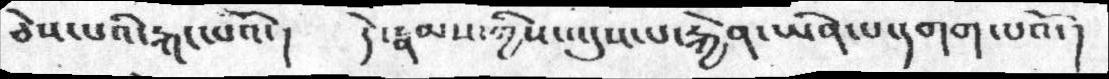ཅེས་པའི་རྐང་པའོ་།  དེ་རྣམས་ཀྱིས་འདུས་པ་རྐྱེན་ཡིན་པ་དགག་པའོ་།
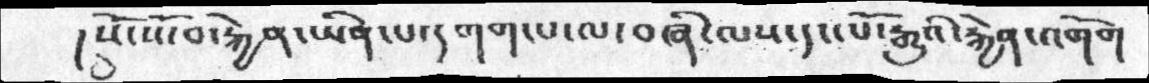།སོ་སོ་བ་རྐྱེན་ཡིན་པ་དགག་པ་ལ་བཞི་ལས་དང་པོ་རྒྱུའི་རྐྱེན་འགོག
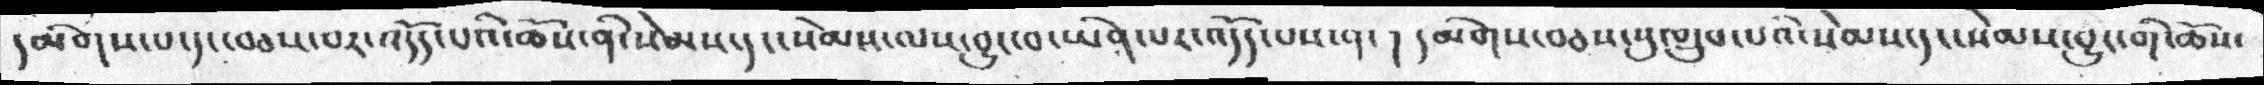དམིགས་པ་དང་བཅས་པར་འདོད་པའི་ཆོས་ནི་སེམས་དང་སེམས་ལས་བྱུང་བ་ཡིན་པར་འདོད་པས་ན་། དམིགས་བཅས་སུ་གྲུབ་པའི་སེམས་དང་སེམས་བྱུང་གི་ཆོས་
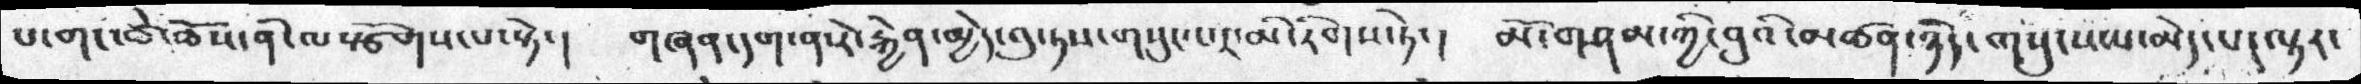པ་གང་ཚེ་ཆོས་ནི་ལསྩོགས་པ་སྟེ་།  གཞན་དག་ན་རེ་རྐྱེན་མྱེད་བུ་ཏས་གསུང་པར་མི་རིགས་ཏེ་། མོ་གཤམ་ཀྱི་བུའི་མཚན་ཉིད་གསུངས་པ་མེད་པ་ལྟར་
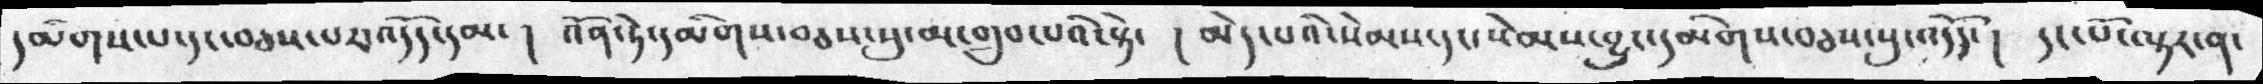དམིགས་པ་དང་བཅས་པར་འདོད་དམ་།  འོན་ཏེ་དམིགས་བཅས་སུ་མ་གྲུབ་པའི་སྟེ་ ། མེད་པའི་སེམས་དང་སེམས་བྱུང་དམིགས་བཅས་སུ་འདོད་།  དང་པོ་ལྟར་ན་
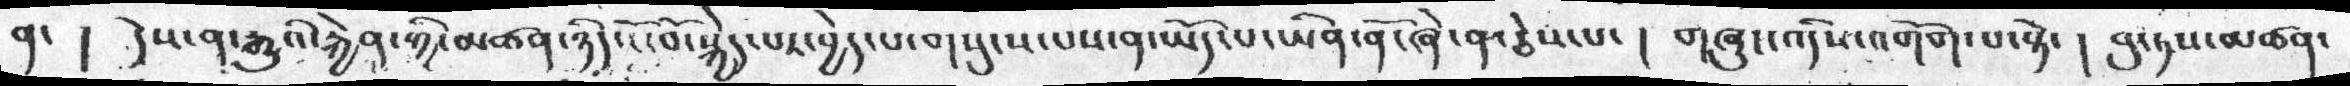ན་ །  དེས་ན་རྒྱུའི་རྐྱེན་ཀྱི་མཚན་ཉིད་ངོ་བོ་སྐྱེད་པར་བྱེད་པ་གསུངས་པས་ན་ཡོད་པ་ཡིན་ནོ་ཞེ་ན་ཅེས་པ་།  གཞུང་འདིས་འགོག་པ་སྟེ་།  བུ་ཏས་མཚན་
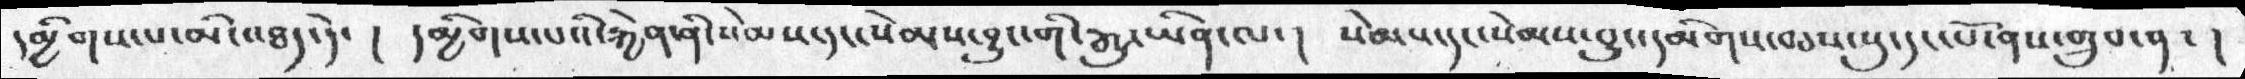དམྱིགས་པ་མི་འཐད་དེ་ ། དམྱིགས་པའི་རྐྱེན་ནི་སེམས་དང་སེམས་བྱུང་གི་རྒྱུ་ཡིན་ལ་།  སེམས་དང་སེམས་བྱུང་དམིགས་བཅས་སུ་དང་པོ་ནས་གྲུབ་ན་།
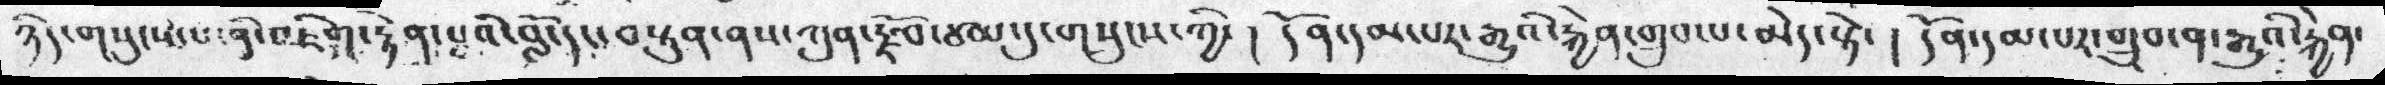ཉིད་གསུངས་པ་ནི་འཇིག་རྟེན་པའི་བློ་དང་བསྟུན་ནས་ཀུན་རྫོབ་ཙམ་དུ་གསུངས་ཀྱི་། དོན་དམ་པར་རྒྱུའི་རྐྱེན་གྲུབ་པ་མེད་སྟེ་།  དོན་དམ་པར་གྲུབ་ན་རྒྱུའི་རྐྱེན་
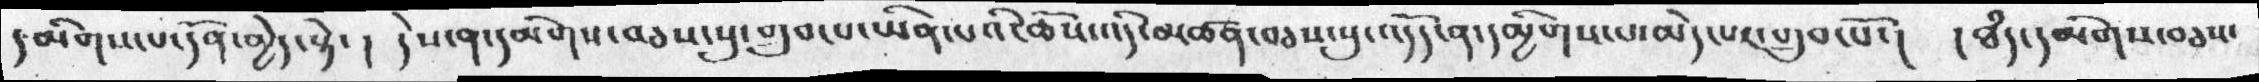དམིགས་པ་དོན་མྱེད་སྟེ་། དེས་ན་དམིགས་བཅས་སུ་གྲུབ་པ་ཡིན་པའི་ཆོས་འདི་མཚན་བཅས་སུ་འདོད་ན་དམྱིགས་པ་མེད་པ་གྲུབ་པོ་།  །ཐཾད་དམིགས་བཅས་
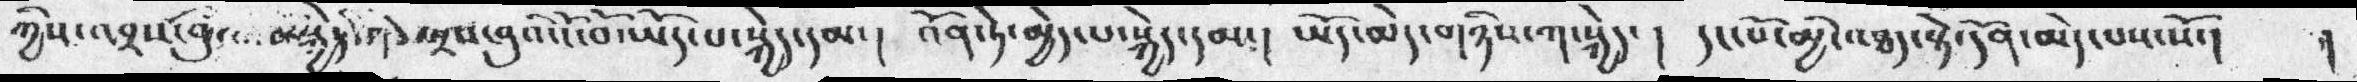ཀྱིས་འབྲས་བུ་བསྐྱེད་ནི་འབྲས་བུའི་ངོ་བོ་ཡོད་པ་སྐྱེད་དམ་།   འོན་ཏེ་མྱེད་པ་སྐྱེད་དམ་།  ཡོད་མེད་གཉིས་ཀ་སྐྱེད་།   དང་པོ་མྱི་འཐད་སྟེ་དོན་མེད་པས་སོ་།    །
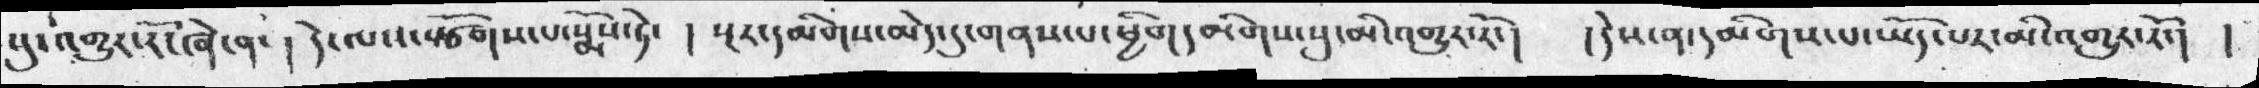སུ་འགྱུར་རོ་ཞེ་ན་། དེ་ལས་སྩོགས་པ་སྨོས་ཏེ་ ། སྔར་དམིགས་མེད་དུ་གནས་པ་ཕྱིགདམིགས་སུ་མི་འགྱུར་རོ་།  །དེས་ན་དམིགས་པ་ཡོད་པར་མི་འགྱུར་རོ་། །
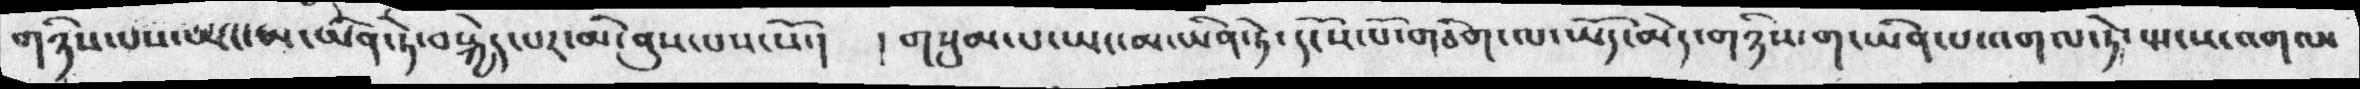གཉིས་པ་ཡང་མ་ཡིན་ཏེ་བསྐྱེད་པར་མི་ནུས་པས་སོ་།  །གསུམ་པ་ཡང་མ་ཡིན་ཏེ་དངོས་པོ་གཅིག་ལ་ཡོད་མེད་གཉིས་ག་ཡིན་པ་འགལ་ཏེ་སྤངས་འགལ་
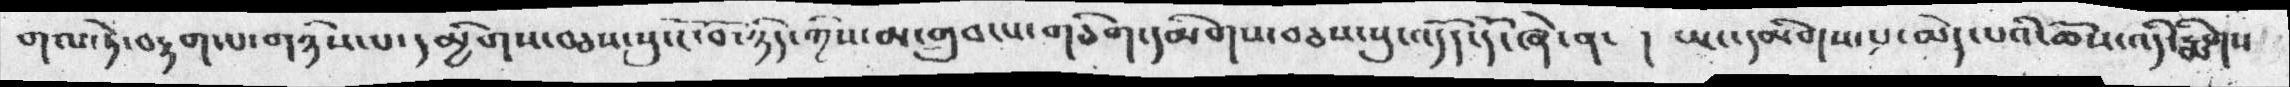གལ་ཏེ་བརྟག་པ་གཉིས་པ་དམྱིགས་བཅས་སུ་ངོ་བོ་ཉིད་ཀྱིས་མ་གྲུབ་པ་གཅིག་དམིགས་བཅས་སུ་འདོད་དོ་ཞེ་ན་ ། ཡང་དམིགས་པ་མེད་པའི་ཆོས་འདི་རྨིགས
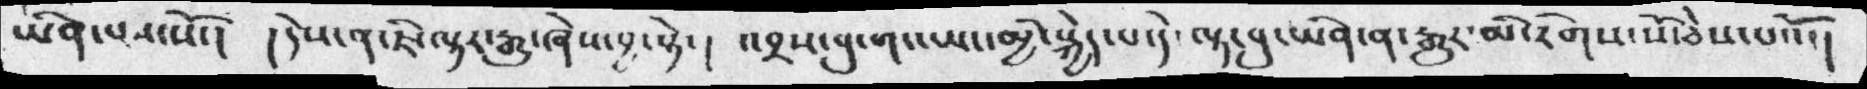ཡིན་པས་སོ་།  །དེས་ན་ཇི་ལྟར་རྒྱུ་ཞེས་བྱ་སྟེ་།  འབྲས་བུ་གང་ཡང་མྱི་སྐྱེད་པ་དེ་ལྟ་བུ་ཡིན་ན་རྒྱུར་མི་རིགས་སོ་ཅེས་པའོ་།
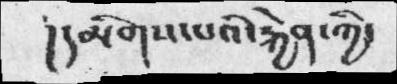།དམིགས་པའི་རྐྱེན་ཀྱི་
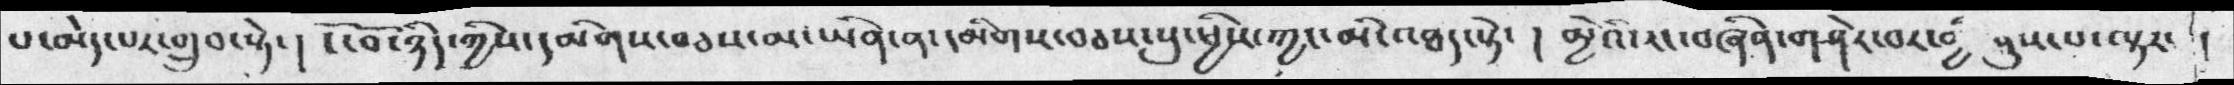པ་མེད་པར་གྲུབ་སྟེ་།   ངོ་བོ་ཉིད་ཀྱིས་དམིགས་བཅས་མ་ཡིན་ན་དམིགས་སུ་ཕྱིས་ཀྱང་མི་འཐད་སྟེ་།   མྱེའི་རང་བཞིན་གཤེར་བར་གྱི་བསྡུས་པ་ལྟར་།
